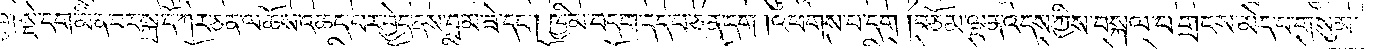དྲུག་སྡེ་དག་མི་ན་བར་སྐྲ་དོ་ཀེར་ཅན་ལ་ཆོས་འཆད་པར་བྱེད་ནས་བྲམ་ཟེ་དང༌། ཁྱིམ་བདག་དད་པ་ཅན་དག །འཕགས་པ་དག །བཅོམ་ལྡན་འདས་ཀྱིས་བསྐལ་པ་གྲངས་མེད་པ་གསུམ་
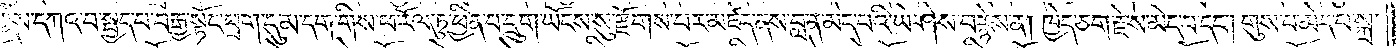གྱིས་དཀའ་བ་སྤྱད་པ་བརྒྱ་སྟོང་ཕྲག་དུ་མ་དག་གིས་ཕ་རོལ་ཏུ་ཕྱིན་པ་དྲུག་ཡོངས་སུ་རྫོགས་པར་མཛད་ནས་བླ་ན་མེད་པའི་ཡེ་ཤེས་བརྙེས་ན། ཁྱེད་ཅག་རྗེས་མེད་པ་དང༌། གུས་པ་མེད་པ་སྐྲ་
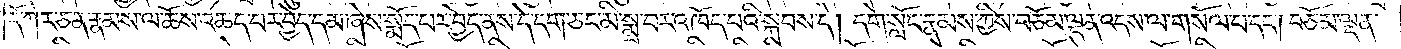དོ་ཀེར་ཅན་རྣམས་ལ་ཆོས་འཆད་པར་བྱེད་དམ་ཞེས་སྨོད་པར་བྱེད་ནས་དེ་དག་ཅང་མི་སྨྲ་བར་འཁོད་པའི་སྐབས་དེ། དགེ་སློང་རྣམས་ཀྱིས་བཅོམ་ལྡན་འདས་ལ་གསོལ་པ་དང༌། བཅོམ་ལྡན་
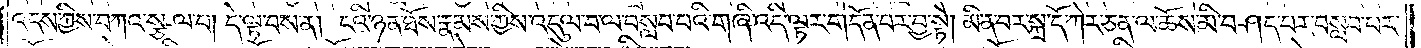འདས་ཀྱིས་བཀའ་སྩལ་པ། དེ་ལྟ་བས་ན། ངའི་ཉན་ཐོས་རྣམས་ཀྱིས་འདུལ་བ་ལ་བསླབ་པའི་གཞི་འདི་ལྟར་གདོན་པར་བྱ་སྟེ། མི་ན་བར་སྐྲ་དོ་ཀེར་ཅན་ལ་ཆོས་མི་བཤད་པར་བསླབ་པར་
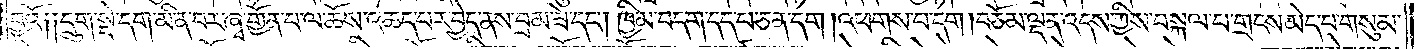བྱའོ། །དྲུག་སྡེ་དག་མི་ན་བར་ཞྭ་གྱོན་པ་ལ་ཆོས་འཆད་པར་བྱེད་ནས་བྲམ་ཟེ་དང༌། ཁྱིམ་བདག་དད་པ་ཅན་དག །འཕགས་པ་དག །བཅོམ་ལྡན་འདས་ཀྱིས་བསྐལ་པ་གྲངས་མེད་པ་གསུམ་
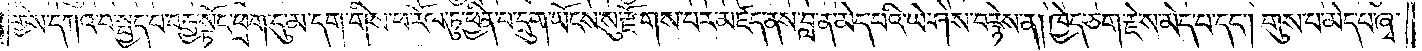གྱིས་དཀའ་བ་སྤྱད་པ་བརྒྱ་སྟོང་ཕྲག་དུ་མ་དག་གིས་ཕ་རོལ་ཏུ་ཕྱིན་པ་དྲུག་ཡོངས་སུ་རྫོགས་པར་མཛད་ནས་བླ་ན་མེད་པའི་ཡེ་ཤེས་བརྙེས་ན། ཁྱེད་ཅག་རྗེས་མེད་པ་དང༌། གུས་པ་མེད་པ་ཞྭ་
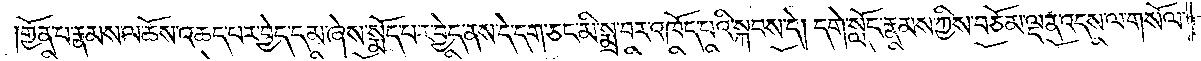གྱོན་པ་རྣམས་ལ་ཆོས་འཆད་པར་བྱེད་དམ་ཞེས་སྨོད་པར་བྱེད་ནས་དེ་དག་ཅང་མི་སྨྲ་བར་འཁོད་པའི་སྐབས་དེ། དགེ་སློང་རྣམས་ཀྱིས་བཅོམ་ལྡན་འདས་ལ་གསོལ་
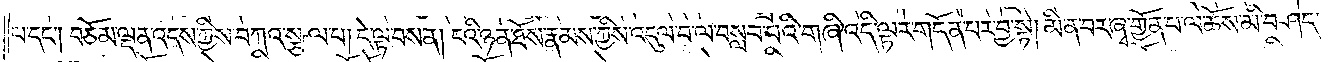པ་དང༌། བཅོམ་ལྡན་འདས་ཀྱིས་བཀའ་སྩལ་པ། དེ་ལྟ་བས་ན། ངའི་ཉན་ཐོས་རྣམས་ཀྱིས་འདུལ་བ་ལ་བསླབ་པའི་གཞི་འདི་ལྟར་གདོན་པར་བྱ་སྟེ། མི་ན་བར་ཞྭ་གྱོན་པ་ལ་ཆོས་མི་བཤད་
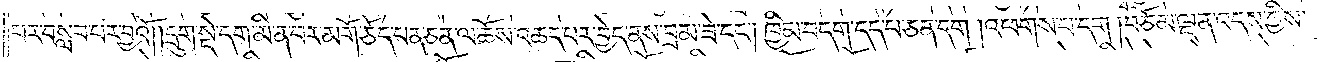པར་བསླབ་པར་བྱའོ། །དྲུག་སྡེ་དག་མི་ན་བར་མགོ་ཅོད་པན་ཅན་ལ་ཆོས་འཆད་པར་བྱེད་ནས་བྲམ་ཟེ་དང༌། ཁྱིམ་བདག་དད་པ་ཅན་དག །འཕགས་པ་དག །བཅོམ་ལྡན་འདས་ཀྱིས་
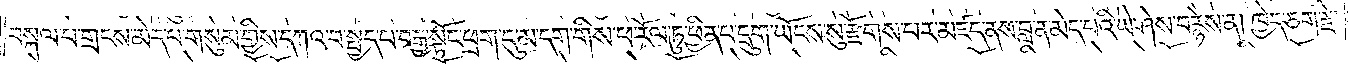བསྐལ་པ་གྲངས་མེད་པ་གསུམ་གྱིས་དཀའ་བ་སྤྱད་པ་བརྒྱ་སྟོང་ཕྲག་དུ་མ་དག་གིས་ཕ་རོལ་ཏུ་ཕྱིན་པ་དྲུག་ཡོངས་སུ་རྫོགས་པར་མཛད་ནས་བླ་ན་མེད་པའི་ཡེ་ཤེས་བརྙེས་ན། ཁྱེད་ཅག་རྗེ་
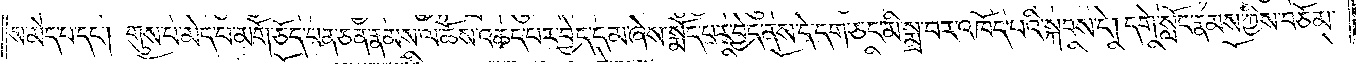ས་མེད་པ་དང༌། གུས་པ་མེད་པ་མགོ་ཅོད་པན་ཅན་རྣམས་ལ་ཆོས་འཆད་པར་བྱེད་དམ་ཞེས་སྨོད་པར་བྱེད་ནས་དེ་དག་ཅང་མི་སྨྲ་བར་འཁོད་པའི་སྐབས་དེ། དགེ་སློང་རྣམས་ཀྱིས་བཅོམ་
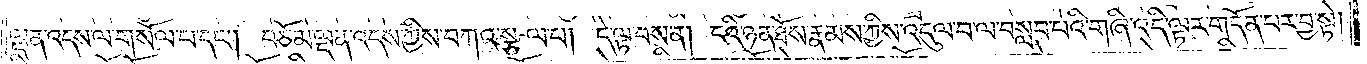ལྡན་འདས་ལ་གསོལ་པ་དང༌། བཅོམ་ལྡན་འདས་ཀྱིས་བཀའ་སྩལ་པ། དེ་ལྟ་བས་ན། ངའི་ཉན་ཐོས་རྣམས་ཀྱིས་འདུལ་བ་ལ་བསླབ་པའི་གཞི་འདི་ལྟར་གདོན་པར་བྱ་སྟེ།
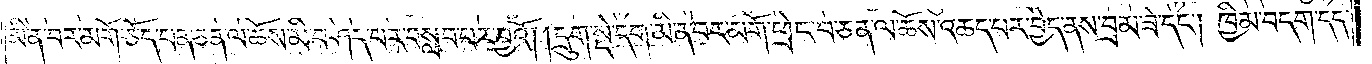མི་ན་བར་མགོ་ཅོད་པན་ཅན་ལ་ཆོས་མི་བཤད་པར་བསླབ་པར་བྱའོ། །དྲུག་སྡེ་དག་མི་ན་བར་མགོ་ཕྲེང་བ་ཅན་ལ་ཆོས་འཆད་པར་བྱེད་ནས་བྲམ་ཟེ་དང༌། ཁྱིམ་བདག་དད་
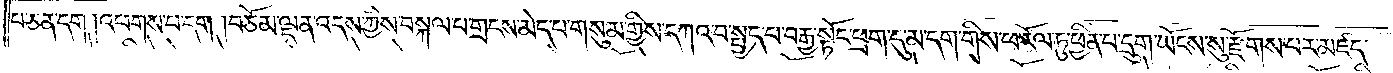པ་ཅན་དག །འཕགས་པ་དག །བཅོམ་ལྡན་འདས་ཀྱིས་བསྐལ་པ་གྲངས་མེད་པ་གསུམ་གྱིས་དཀའ་བ་སྤྱད་པ་བརྒྱ་སྟོང་ཕྲག་དུ་མ་དག་གིས་ཕ་རོལ་ཏུ་ཕྱིན་པ་དྲུག་ཡོངས་སུ་རྫོགས་པར་མཛད་
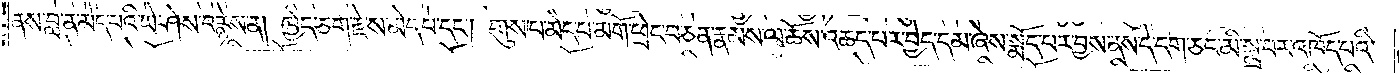ནས་བླ་ན་མེད་པའི་ཡེ་ཤེས་བརྙེས་ན། ཁྱེད་ཅག་རྗེ་ས་མེད་པ་དང༌། གུས་པ་མེད་པ་མགོ་ཕྲེང་བ་ཅན་རྣམས་ལ་ཆོས་འཆད་པར་བྱེད་དམ་ཞེས་སྨོད་པར་བྱས་ནས་དེ་དག་ཅང་མི་སྨྲ་བར་འཁོད་པའི་
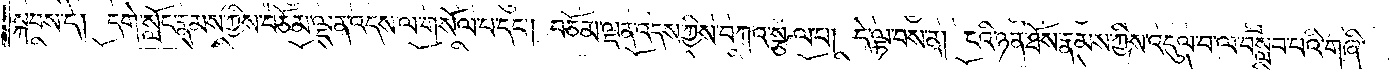སྐབས་དེ། དགེ་སློང་རྣམས་ཀྱིས་བཅོམ་ལྡན་འདས་ལ་གསོལ་པ་དང༌། བཅོམ་ལྡན་འདས་ཀྱིས་བཀའ་སྩལ་པ། དེ་ལྟ་བས་ན། ངའི་ཉན་ཐོས་རྣམས་ཀྱིས་འདུལ་བ་ལ་བསླབ་པའི་གཞི་
